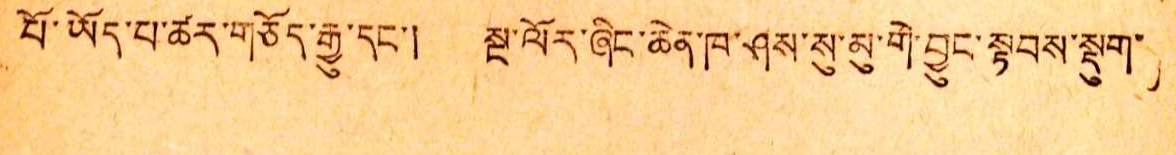པོ་ཡོད་པ་ཚར་གཙོད་རྒྱུ་དང་། ལྔ་ལོར་ཞིང་ཆེན་ཁ་ཤས་སུ་མུ་གེ་བྱུང་སྟབས་སྡུག་
